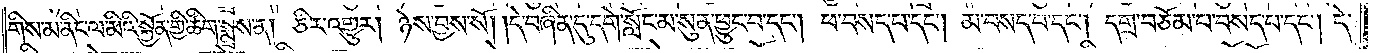གིས་མ་ནིང་ལ་མིའི་སྐྱོན་གྱི་ཚིག་སྨྲས་ན། ཅིར་འགྱུར། ཉེས་བྱས་སོ། །དེ་བཞིན་དུ་དགེ་སློང་མ་སུན་ཕྱུང་བ་དང༌། ཕ་བསད་པ་དང༌། མ་བསད་པ་དང༌། དགྲ་བཅོམ་པ་བསད་པ་དང༌། དེ་
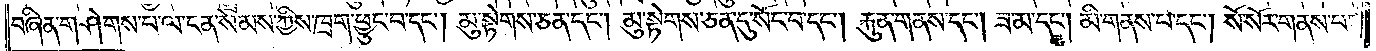བཞིན་གཤེགས་པ་ལ་ངན་སེམས་ཀྱིས་ཁྲག་ཕྱུང་བ་དང༌། མུ་སྟེགས་ཅན་དང༌། མུ་སྟེགས་ཅན་དུ་སོང་བ་དང༌། རྐུན་གནས་དང༌། ཟ་མ་དང༌། མི་གནས་པ་དང༌། སོ་སོར་གནས་པ་
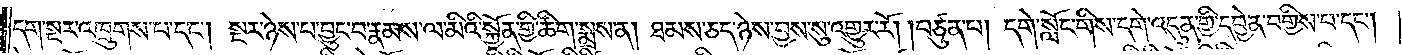དག་སྔར་འཁྲུགས་པ་དང༌། སྔར་ཉེས་པ་བྱུང་བ་རྣམས་ལ་མིའི་སྐྱོན་གྱི་ཚིག་སྨྲས་ན། ཐམས་ཅད་ཉེས་བྱས་སུ་འགྱུར་རོ། །བཙུན་པ། དགེ་སློང་གིས་དགེ་འདུན་གྱི་དབྱེན་བགྱིས་པ་དང༌།
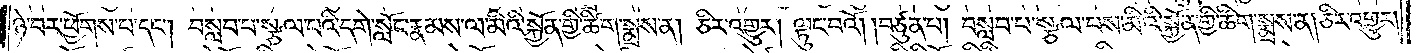ཉེ་བར་ཕྱོགས་པ་དང༌། བསླབ་པ་སྩལ་བའི་དགེ་སློང་རྣམས་ལ་མིའི་སྐྱོན་གྱི་ཚིག་སྨྲས་ན། ཅིར་འགྱུར། ལྟུང་བའོ། །བཙུན་པ། བསླབ་པ་སྩལ་པས་མིའི་སྐྱོན་གྱི་ཆིས་སྨྲས་ན། ཅིར་འགྱུར།
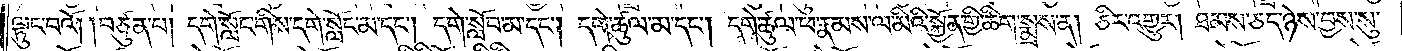ལྟུང་བའོ། །བཙུན་པ། དགེ་སློང་གིས་དགེ་སློང་མ་དང༌། དགེ་སློབ་མ་དང༌། དགེ་ཚུལ་མ་དང༌། དགེ་ཚུལ་ཕ་རྣམས་ལ་མིའི་སྐྱོན་གྱི་ཚིག་སྨྲས་ན། ཅིར་འགྱུར། ཐམས་ཅད་ཉེས་བྱས་སུ་
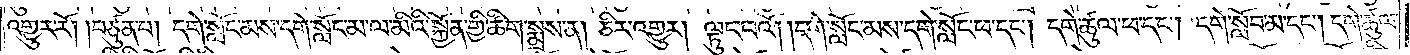འགྱུར་རོ། །བཙུན་པ། དགེ་སློང་མས་དགེ་སློང་མ་ལ་མིའི་སྐྱོན་གྱི་ཚིག་སྨྲས་ན། ཅིར་འགྱུར། ལྟུང་བའོ། །དགེ་སློང་མས་དགེ་སློང་ཕ་དང༌། དགེ་ཚུལ་ཕ་དང༌། དགེ་སློབ་མ་དང༌། དགེ་ཚུལ་
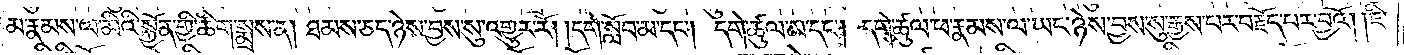མ་རྣམས་ལ་མིའི་སྐྱོན་གྱི་ཚིག་སྨྲས་ན། ཐམས་ཅད་ཉེས་བྱས་སུ་འགྱུར་རོ། །དགེ་སློབ་མ་དང༌། དགེ་ཚུལ་མ་དང༌། དགེ་ཚུལ་ཕ་རྣམས་ལ་ཡང་ཉེས་བྱས་སུ་རྒྱས་པར་བརྗོད་པར་བྱའོ། །ཇི་
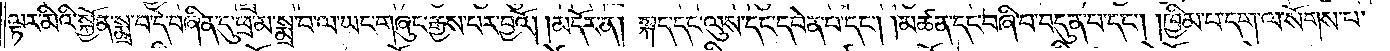ལྟར་མིའི་སྐྱོན་སྨྲ་བ་དེ་བཞིན་དུ་ཕྲ་མ་སྨྲ་བ་ལ་ཡང་གཞུང་རྒྱས་པར་བྱའོ།    །མདོར་ན། སྐད་དང་ལུས་དང་དབེན་པ་དང༌། །མཚན་དང་བཞི་པ་བདུན་པ་དང༌། །ཁྱིམ་པ་དག་ལ་སོགས་པ་
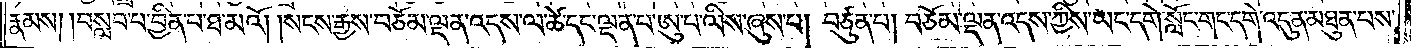རྣམས། །བསླབ་པ་བྱིན་པ་ཐ་མའོ། །སངས་རྒྱས་བཅོམ་ལྡན་འདས་ལ་ཚེ་དང་ལྡན་པ་ཨུ་པ་ལིས་ཞུས་པ། བཙུན་པ། བཅོམ་ལྡན་འདས་ཀྱིས་ཡང་དགེ་སློབ་གང་དགེ་འདུན་མཐུན་པས་
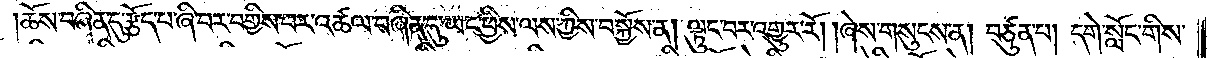ཆོས་བཞིན་དུ་རྩོད་པ་ཞི་བར་བགྱིས་པར་འཚལ་བཞིན་དུ་ཡང་ཕྱིས་ལས་ཀྱིས་བསྐྱོས་ན། ལྟུང་བར་འགྱུར་རོ། །ཞེས་གསུངས་ན། བཙུན་པ། དགེ་སློང་གིས་
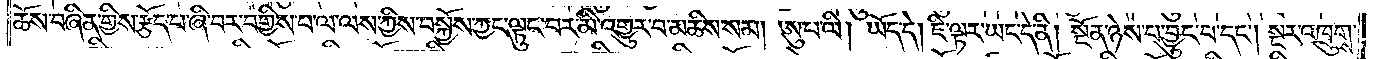ཆོས་བཞིན་གྱིས་རྩོད་པ་ཞི་བར་བགྱིས་པ་ལ་ལས་ཀྱིས་བསྐྱོས་ཀྱང་ལྟུང་བར་མི་འགྱུར་བ་མཆིས་སམ། ཨུ་པ་ལི། ཡོད་དེ། ཇི་ལྟར་ཡང་དེ་ནི། སྔོན་ཉེས་པ་བྱུང་བ་དང༌། སྔར་འཁྲུགས་
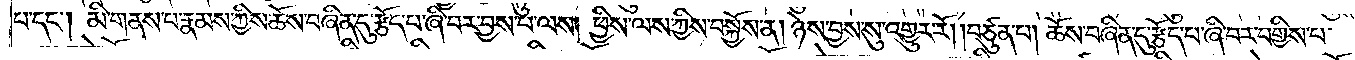པ་དང༌། མི་གནས་པ་རྣམས་ཀྱིས་ཆོས་བཞིན་དུ་རྩོད་པ་ཞི་བར་བྱས་པ་ལས། ཕྱིས་ལས་ཀྱིས་བསྐྱོས་ན། ཉེས་བྱས་སུ་འགྱུར་རོ། །བཙུན་པ། ཆོས་བཞིན་དུ་རྩོད་པ་ཞི་བར་བགྱིས་པ་
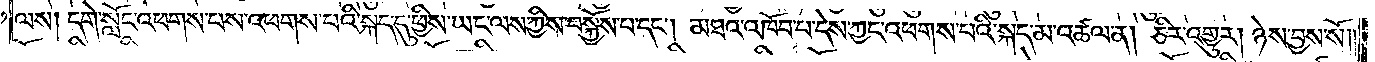ལས། དགེ་སློང་འཕགས་པས་འཕགས་པའི་སྐད་དུ་ཕྱིས་ཡང་ལས་ཀྱིས་བསྐྱོས་པ་དང༌། མཐའ་འཁོབ་པ་དེས་ཀྱང་འཕགས་པའི་སྐད་མ་འཚལ་ན། ཅིར་འགྱུར། ཉེས་བྱས་སོ༎
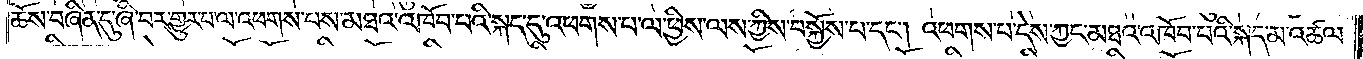ཆོས་བཞིན་དུ་ཞི་བར་གྱུར་བ་ལ་འཕགས་པས་མཐའ་འཁོབ་པའི་སྐད་དུ་འཕགས་པ་ལ་ཕྱིས་ལས་ཀྱིས་བསྐྱོས་པ་དང༌། འཕགས་པ་དེས་ཀྱང་མཐའ་འཁོབ་པའི་སྐད་མ་འཚལ་
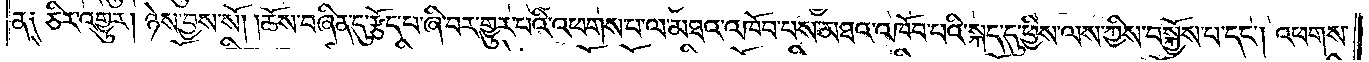ན༑ ཅིར་འགྱུར། ཉེས་བྱས་སོ། །ཆོས་བཞིན་དུ་རྩོད་པ་ཞི་བར་གྱུར་པའི་འཕགས་པ་ལ་མཐའ་འཁོབ་པས་མཐའ་འཁོབ་པའི་སྐད་དུ་ཕྱིས་ལས་ཀྱིས་བསྐྱོས་པ་དང༌། འཕགས་
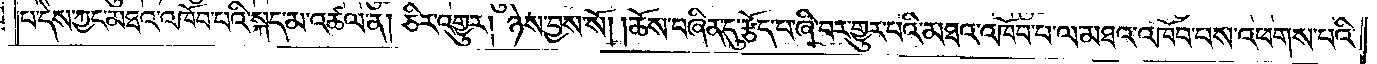པ་དེས་ཀྱང་མཐའ་འཁོབ་པའི་སྐད་མ་འཚལ་ན། ཅིར་འགྱུར། ཉེས་བྱས་སོ། །ཆོས་བཞིན་དུ་རྩོད་པ་ཞི་བར་གྱུར་པའི་མཐའ་འཁོབ་པ་ལ་མཐའ་འཁོབ་པས་འཕགས་པའི་
